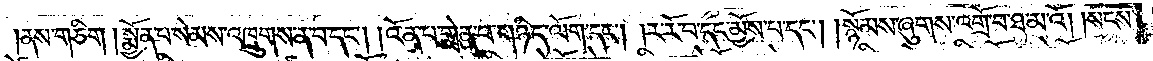།ནས་གཅིག །སྨྱོན་པ་སེམས་འཁྲུགས་ན་བ་དང༌། །འོན་པ་གླེན་པ་གཉིད་ལོག་དང༌། །ར་རོ་བ་དང་མྱོས་པ་དང༌། །སྙོམས་ཞུགས་འགྲོ་བ་ཐ་མའོ། །སངས་
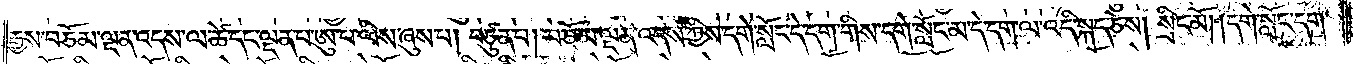རྒྱས་བཅོམ་ལྡན་འདས་ལ་ཚེ་དང་ལྡན་པ་ཨུ་པ་ལིས་ཞུས་པ། བཙུན་པ། བཅོམ་ལྡན་འདས་ཀྱིས་དགེ་སློང་དེ་དག་གིས་དགེ་སློང་མ་དེ་དག་ལ་འདི་སྐད་ཅེས། སྲིང་མོ། །དགེ་སློང་དག་
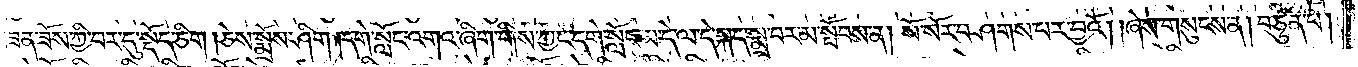ཟན་ཟོས་ཀྱི་བར་དུ་སྡོད་ཅིག །ཅེས་སྨྲོས་ཤིག །དགེ་སློང་འགའ་ཞིག་གིས་ཀྱང་དགེ་སློང་མ་དེ་ལ་དེ་སྐད་སྨྲ་བར་མ་སྤོབས་ན། སོ་སོར་བཤགས་པར་བྱའོ། །ཞེས་གསུངས་ན། བཙུན་པ།
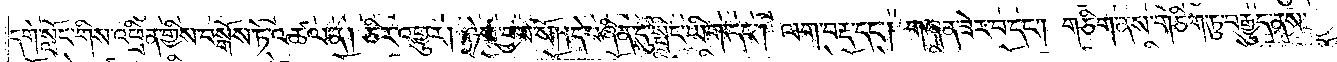དགེ་སློང་གིས་འཕྲིན་གྱིས་བསྒོས་ཏེ་འཚལ་ན། ཅིར་འགྱུར། ཉེས་བྱས་སོ། །དེ་བཞིན་དུ་སྤྲིང་ཡིག་དང༌། ལག་བརྡ་དང༌། གཞན་ཟེར་བ་དང༌། གཅིག་ནས་གཅིག་ཏུ་བརྒྱུད་ནས་
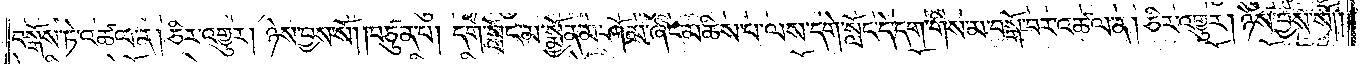བསྒོས་ཏེ་འཚལ་ན། ཅིར་འགྱུར། ཉེས་བྱས་སོ། །བཙུན་པ། དགེ་སློང་མ་སྨྱོན་མ་ཤོམ་ཞིང་མཆིས་པ་ལས་དགེ་སློང་དེ་དག་གིས་མ་བསྒོ་བར་འཚལ་ན། ཅིར་འགྱུར། ཉེས་བྱས་སོ། །
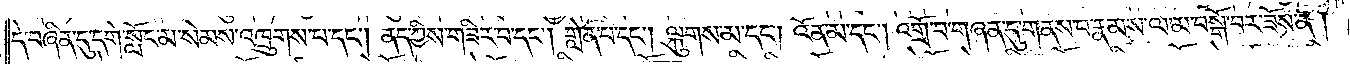དེ་བཞིན་དུ་དགེ་སློང་མ་སེམས་འཁྲུགས་པ་དང༌། ནད་ཀྱིས་གཟིར་བ་དང༌། གླེན་པ་དང༌། ལྐུགས་མ་དང༌། འོན་མ་དང༌། འགྲོ་བ་གཞན་དུ་གནས་པ་རྣམས་ལ་མ་བསྒོ་བར་ཟོས་ན།
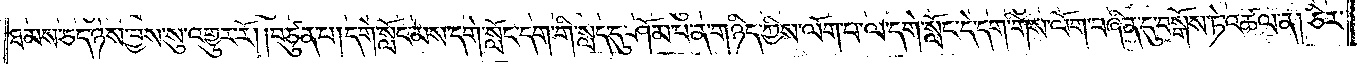ཐམས་ཅད་ཉེས་བྱས་སུ་འགྱུར་རོ། །བཙུན་པ། དགེ་སློང་མས་དགེ་སློང་དག་གི་སླད་དུ་ཤོམ་པ་ན་གཉིད་ཀྱིས་ལོག་པ་ལ་དགེ་སློང་དེ་དག་གིས་ལོག་བཞིན་དུ་བསྒོས་ཏེ་འཚལ་ན། ཅིར་
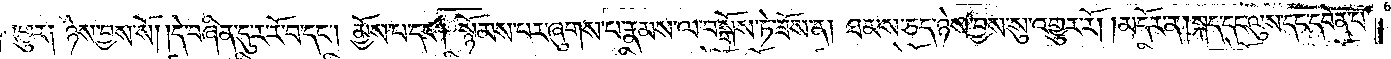འགྱུར༑ ཉེས་བྱས་སོ། །དེ་བཞིན་དུ་ར་རོ་བ་དང༌། མྱོས་པ་དང༌། སྙོམས་པར་ཞུགས་པ་རྣམས་ལ་བསྒོས་ཏེ་ཟོས་ན། ཐམས་ཅད་ཉེས་བྱས་སུ་འགྱུར་རོ། །མདོར་ན། སྐད་དང་ལུས་དང་དབེན་པ་
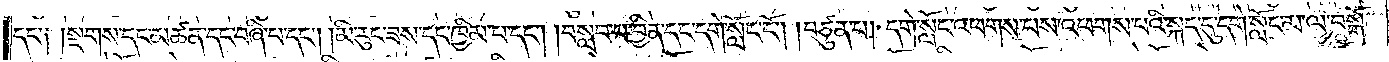དང་༑ །སྔགས་དང་མཚན་དང་བཞི་པ་དང༌། །མི་རུང་ཟས་དང་ཁྱིམ་པ་དང༌། །བསླབ་པ་བྱིན་དང་དགེ་སློང་ངོ༌། །བཙུན་པ། དགེ་སློང་འཕགས་པས་འཕགས་པའི་སྐད་དུ་དགེ་སློང་མ་ལ་བསྒོ་
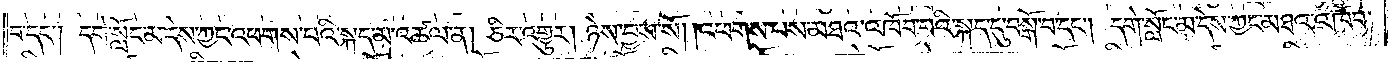བ་དང༌། དགེ་སློང་མ་དེས་ཀྱང་འཕགས་པའི་སྐད་མ་འཚལ་ན། ཅིར་འགྱུར། ཉེས་བྱས་སོ། །འཕགས་པས་མཐའ་འཁོབ་པའི་སྐད་དུ་བསྒོ་བ་དང༌། དགེ་སློང་མ་དེས་ཀྱང་མཐའ་འཁོབ་
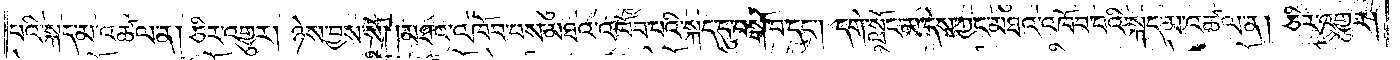པའི་སྐད་མ་འཚལ་ན། ཅིར་འགྱུར། ཉེས་བྱས་སོ། །མཐའ་འཁོབ་པས་མཐའ་འཁོབ་པའི་སྐད་དུ་བསྒོ་བ་དང༌། དགེ་སློང་མ་དེས་ཀྱང་མཐའ་འཁོབ་པའི་སྐད་མ་འཚལ་ན། ཅིར་འགྱུར།
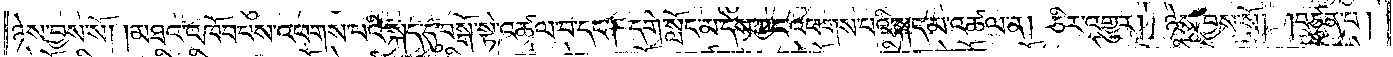ཉེས་བྱས་སོ། །མཐའ་འཁོབ་པས་འཕགས་པའི་སྐད་དུ་བསྒོ་སྟེ་འཚལ་བ་དང༌། དགེ་སློང་མ་དེས་ཀྱང་འཕགས་པའི་སྐད་མ་འཚལ་ན། ཅིར་འགྱུར། ཉེས་བྱས་སོ། །བཙུན་པ།
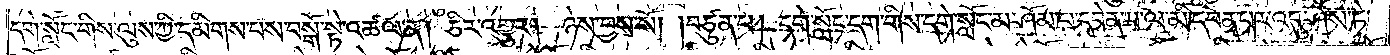དགེ་སློང་གིས་ལུས་ཀྱི་དམིགས་པས་བསྒོ་སྟེ་འཚལ་ན། ཅིར་འགྱུར། ཉེས་བྱས་སོ། །བཙུན་པ། དགེ་སློང་དག་གིས་དགེ་སློང་མ་ཤོམ་པ་དབེན་པ་ལ་མི་དབེན་པར་འདུ་ཤེས་ཏེ་
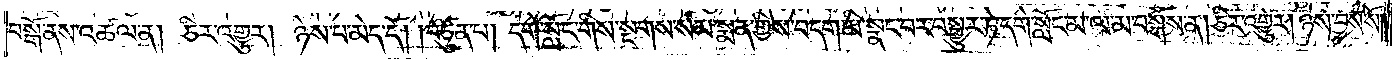བསྒོ་ནས་འཚལ་ན། ཅིར་འགྱུར། ཉེས་པ་མེད་དོ། །བཙུན་པ། དགེ་སློང་གིས་སྔགས་སམ་སྨན་གྱིས་བདག་མི་སྣང་བར་བསྒྱུར་ཏེ་དགེ་སློང་མ་ལ་མ་བསྒོས་ན། ཅིར་འགྱུར། ཉེས་བྱས་སོ༎
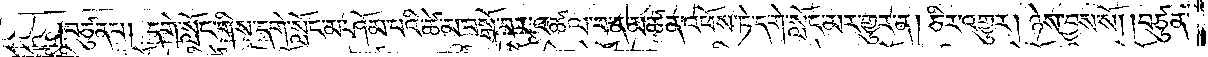།བཙུན་པ། དགེ་སློང་གིས་དགེ་སློང་མ་ཤོམ་པའི་ཚེ་མ་བསྒོ་བར་འཚལ་བ་ན་མཚན་འཕོས་ཏེ་དགེ་སློང་མར་གྱུར་ན། ཅིར་འགྱུར། ཉེས་བྱས་སོ། །བཙུན་
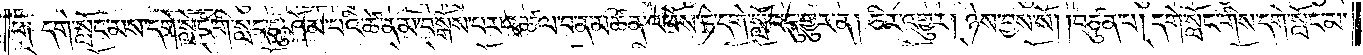པ༑ དགེ་སློང་མས་དགེ་སློང་གི་སླད་དུ་ཤོམ་པའི་ཚེ་ན་མ་བསྒོས་པར་འཚལ་བ་ན་མཚན་འཕོས་ཏེ་དགེ་སློང་དུ་གྱུར་ན། ཅིར་འགྱུར། ཉེས་བྱས་སོ། །བཙུན་པ། དགེ་སློང་གིས་དགེ་སློང་མ་
